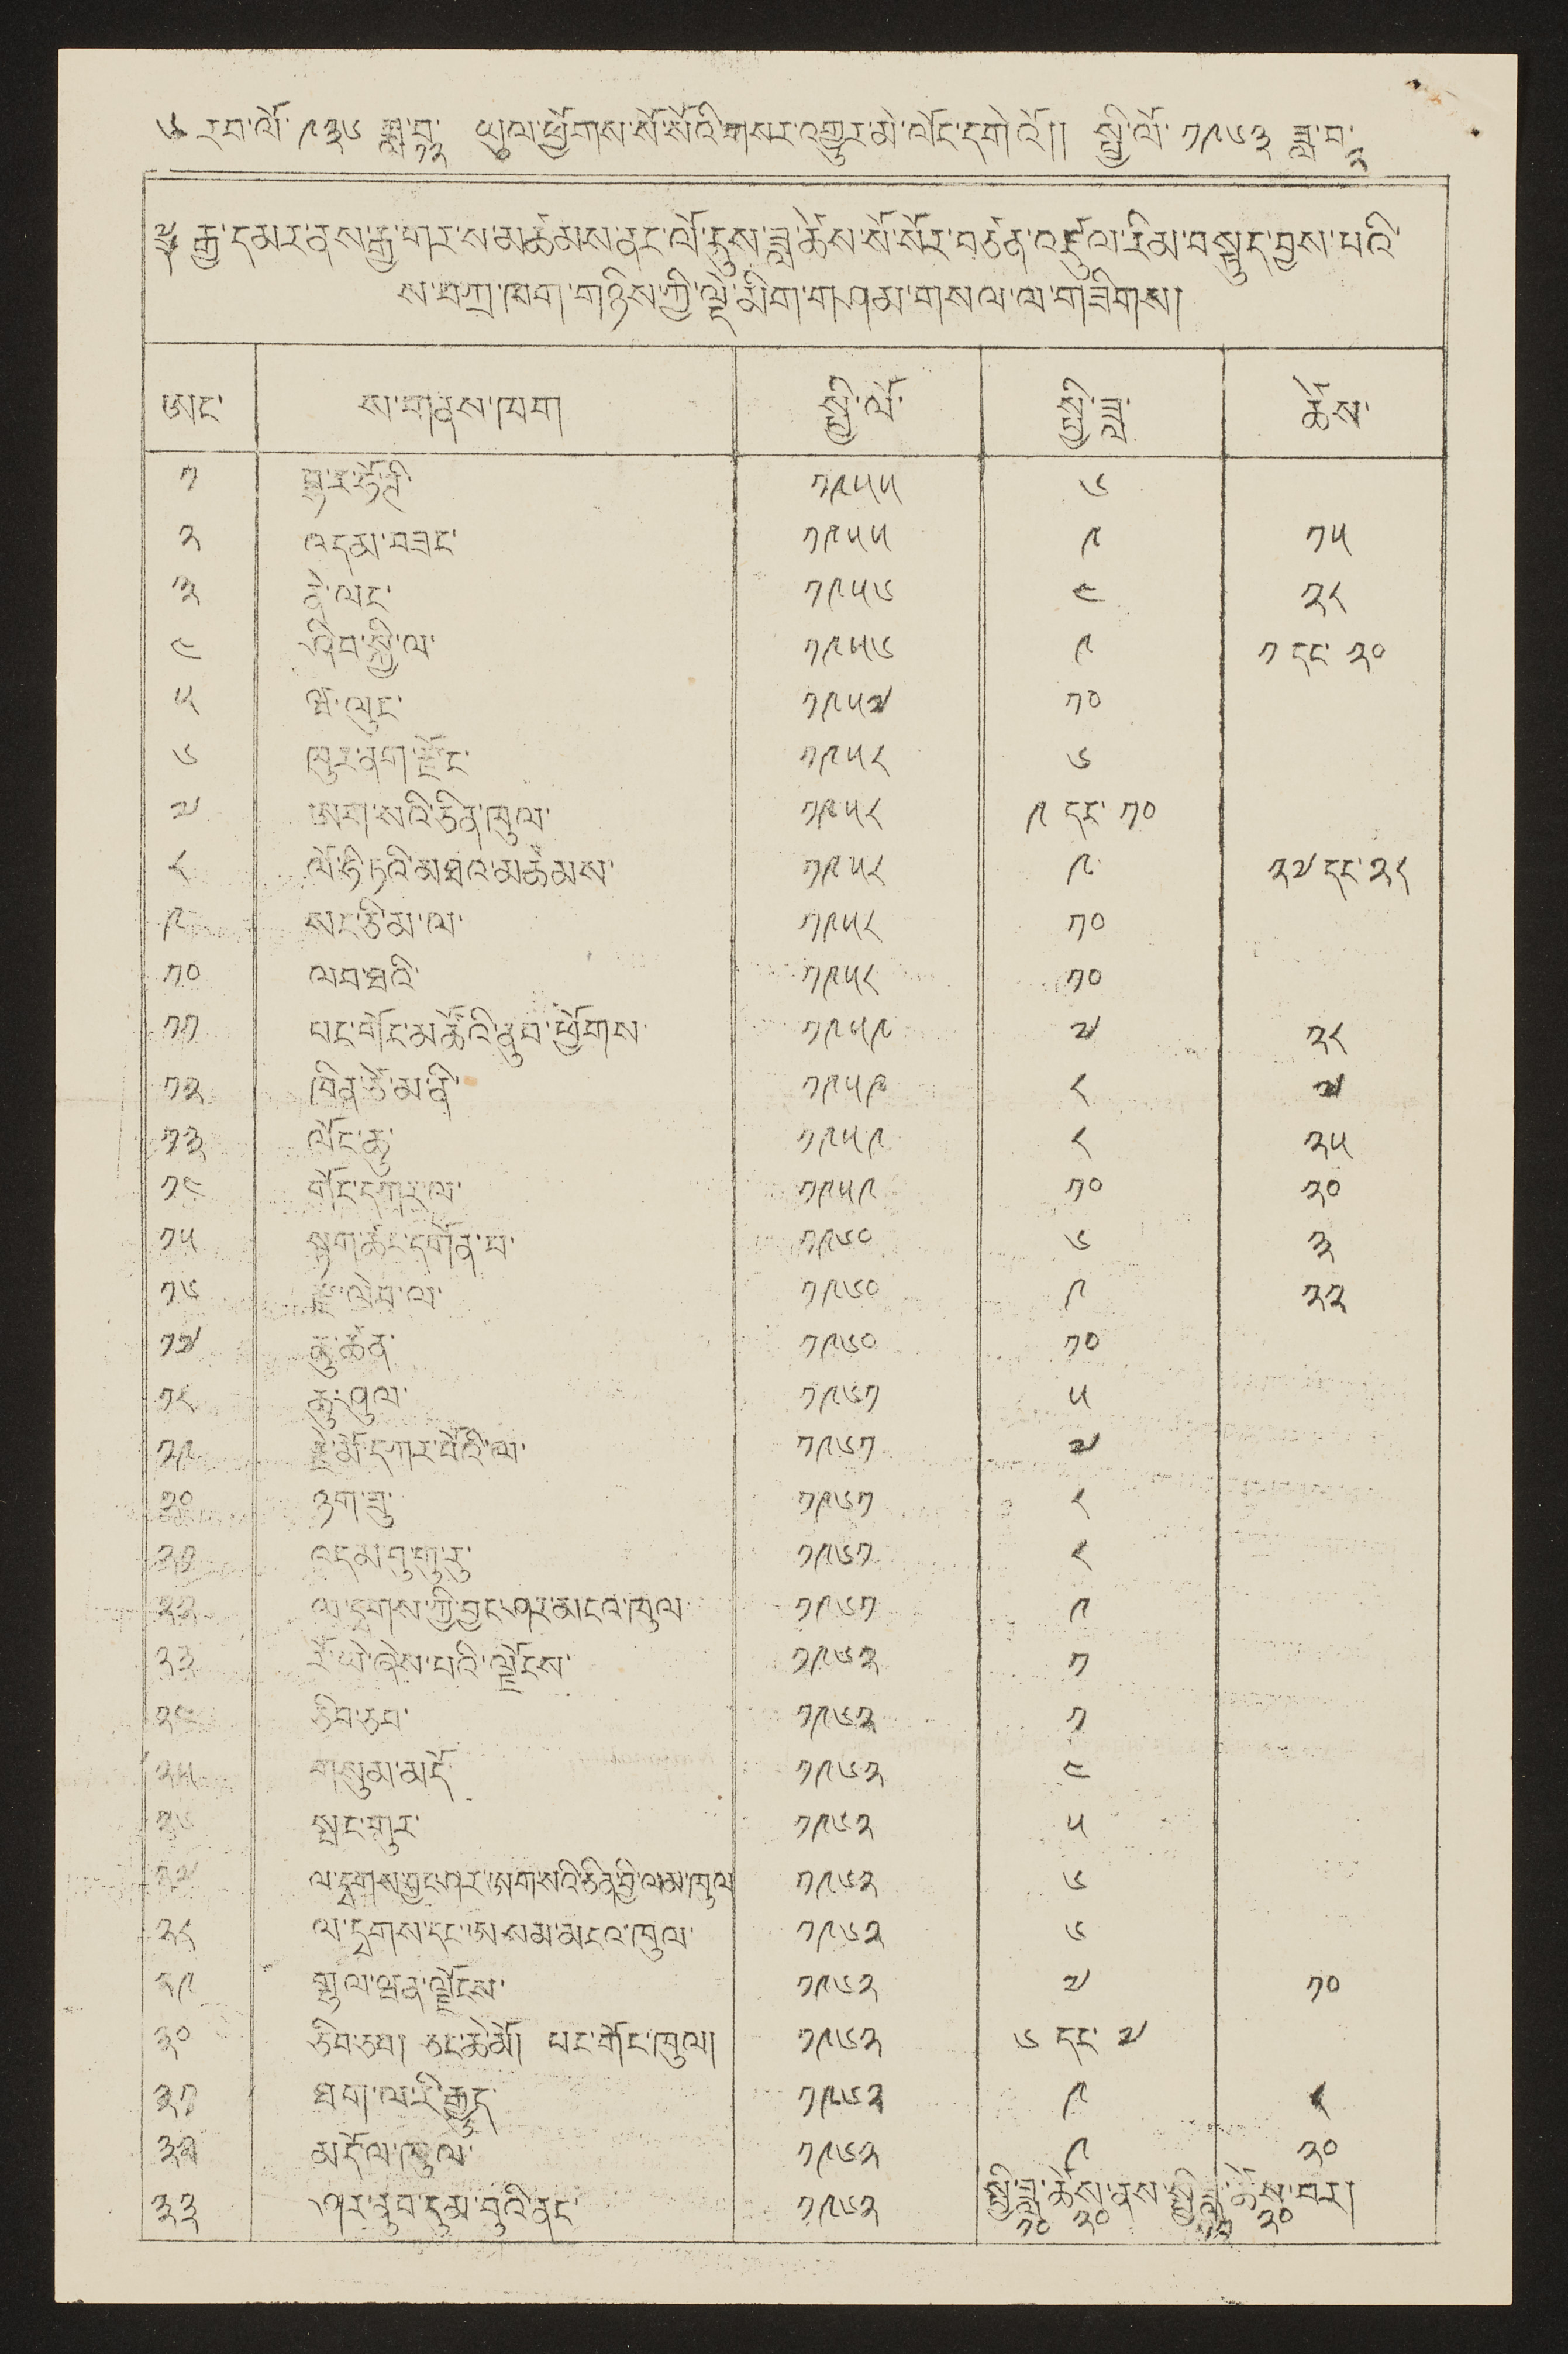༦ རབ་ལོ་ ༩༣༦ ཟླ་བ་
༡༢
ཡུལ་ཕྱོགས་སོ་སོའི་གསར་འགྱུར་མེ་ལོང་དགེའོ།། སྤྱི་ལོ་ ༡༩༦༣ ཟླ་བ་
༢
༈ རྒྱ་དམར་ནས་རྒྱ་གར་ས་མཚམས་ནང་ལོ་དུས་ཟླ་ཚེས་སོ་སོར་བཙན་འཛུལ་རིམ་བསྟུན་བྱས་པའི་
ས་བཀྲ་ཁག་གཉིས་ཀྱི་ལྡི་མིག་གཤམ་གསལ་ལ་གཟིགས།
